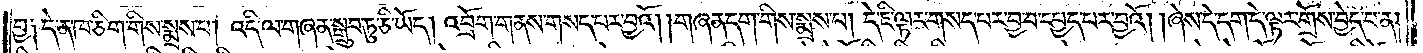བྱ༑ དེ་ན་ཁ་ཅིག་གིས་སྨྲས་པ། འདི་ལ་གཞན་སྒྲུབ་ཏུ་ཅི་ཡོད། འབྲོག་གནས་གསད་པར་བྱའོ། །གཞན་དག་གིས་སྨྲས་པ། དེ་ཇི་ལྟར་གསད་པར་བྱ་བ་དཔྱད་པར་བྱའོ། །ཞེས་དེ་དག་དེ་ལྟར་གྲོས་བྱེད་པ་ན།
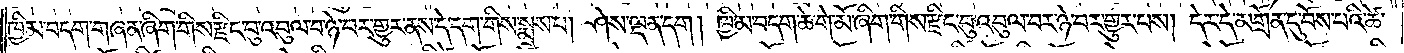ཁྱིམ་བདག་གཞན་ཞིག་གིས་རྫིང་བུ་འབུལ་བ་ཉེ་བར་གྱུར་ནས་དེ་དག་གིས་སྨྲས་པ། ཤེས་ལྡན་དག །ཁྱིམ་བདག་ཆེ་གེ་མོ་ཞིག་གིས་རྫིང་བུ་འབུལ་བར་ཉེ་བར་གྱུར་པས། དེར་དེ་མགྲོན་དུ་བོས་པའི་ཚེ་
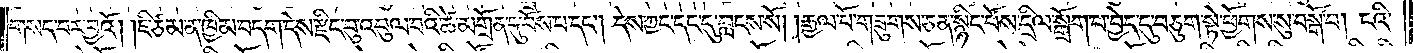གསད་པར་བྱའོ། །ཇི་ཙམ་ན་ཁྱིམ་བདག་དེས་རྫིང་བུ་འབུལ་བའི་ཚེ་མགྲོན་དུ་བོས་པ་དང༌། དེས་ཀྱང་དང་དུ་བླངས་སོ། །རྒྱལ་པོ་གཟུགས་ཅན་སྙིང་པོས་དྲིལ་སྒྲོག་པ་བྱེད་དུ་བཅུག་སྟེ་ཕྱོགས་སུ་བསྒོ་བ། ངའི་
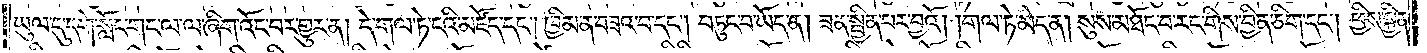ཡུལ་དུ་དགེ་སློང་གང་ལ་ལ་ཞིག་འོང་བར་གྱུར་ན། དེ་གལ་ཏེ་ངའི་མཛོད་དང༌། ཁྱིམ་ན་བཟའ་བ་དང༌། བཏུང་བ་ཡོད་ན། ཟན་སྦྱིན་པར་བྱའོ། །གལ་ཏེ་མེད་ན། སུས་མཐོང་བ་རང་གིས་བྱིན་ཅིག་དང༌། ཕྱིས་སྐྱིན་
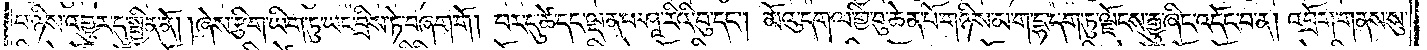པ་ཉིས་འགྱུར་དུ་སྦྱིན་ནོ། །ཞེས་རྩིག་ཡིག་ཏུ་ཡང་བྲིས་ཏེ་བཞག་གོ །བར་དུ་ཚེ་དང་ལྡན་པ་ཤཱ་རིའི་བུ་དང༌། མོའུ་དགལ་གྱི་བུ་ཆེན་པོ་གཉིས་མ་ག་དྷ་དག་ཏུ་ལྗོངས་རྒྱུ་ཞིང་འདོང་བ་ན། འབྲོག་གནས་སུ་
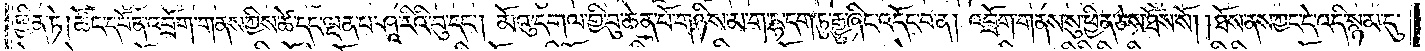ཕྱིན་ཏེ། ཚོང་དཔོན་འབྲོག་གནས་ཀྱིས་ཚེ་དང་ལྡན་པ་ཤཱ་རིའི་བུ་དང༌། མོའུ་དགལ་གྱི་བུ་ཆེན་པོ་གཉིས་མ་ག་དྷ་དག་ཏུ་རྒྱུ་ཞིང་འདོང་བ་ན། འབྲོག་གནས་སུ་ཕྱིན་ཅེས་ཐོས་སོ། །ཐོས་ནས་ཀྱང་དེ་འདི་སྙམ་དུ་
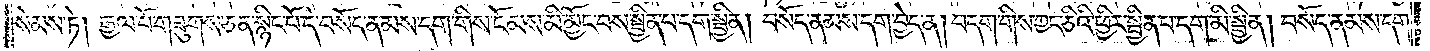སེམས་ཏེ། རྒྱལ་པོ་གཟུགས་ཅན་སྙིང་པོ་དེ་བསོད་ནམས་དག་གིས་ངོམས་མི་མྱོང་བས་སྦྱིན་པ་དག་སྦྱིན། བསོད་ནམས་དག་བྱེད་ན། བདག་གིས་ཀྱང་ཅིའི་ཕྱིར་སྦྱིན་པ་དག་མི་སྦྱིན། བསོད་ནམས་དག་
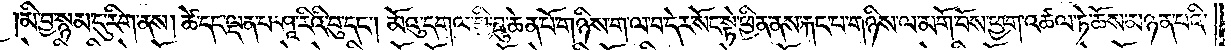།མི་བྱ་སྙམ་དུ་རིག་ནས། ཚེ་དང་ལྡན་པ་ཤཱ་རིའི་བུ་དང༌། མོའུ་དགལ་གྱི་བུ་ཆེན་པོ་གཉིས་ག་ལ་བ་དེར་སོང་སྟེ་ཕྱིན་ནས་རྐང་པ་གཉིས་ལ་མགོ་བོས་ཕྱག་འཚལ་ཏེ་ཆོས་མཉན་པའི་
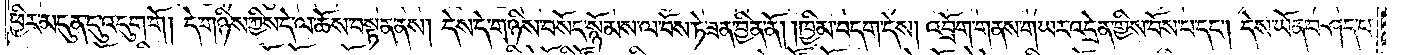ཕྱིར་མདུན་དུ་འདུག་གོ །དེ་གཉིས་ཀྱིས་དེ་ལ་ཆོས་བསྟན་ནས། དེས་དེ་གཉིས་བསོད་སྙོམས་ལ་བོས་ཏེ་ཟན་བྱིན་ནོ། །ཁྱིམ་བདག་དེས། འབྲོག་གནས་གཡར་འདྲེན་གྱིས་བོས་པ་དང༌། དེས་ཡོན་བཤད་པ་
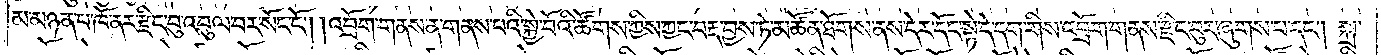མ་མཉན་པ་ཁོ་ནར་རྫིང་བུ་འབུལ་བར་སོང་ངོ༌། །འབྲོག་གནས་ན་གནས་པའི་སྐྱེ་བོའི་ཚོགས་ཀྱིས་ཀྱང་བརྡ་བྱས་ཏེ་མཚོན་ཐོགས་ནས་དེར་དོང་སྟེ་དེ་དག་གིས་འབྲོག་གནས་རྫིང་བུར་ཞུགས་པ་དང༌། སྐྲ་
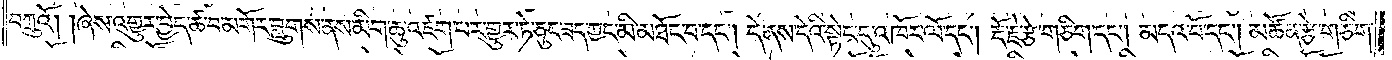བཀྲུའོ། །ཞེས་འགྱུར་བྱེད་ཚ་བ་མགོར་བླུགས་ནས་མིག་ཆུ་འཛག་པར་གྱུར་ཏེ་ཅུང་ཟད་ཀྱང་མི་མཐོང་བ་དང༌། དེ་ནས་དེའི་སྟེང་དུ་འཁོར་ལོ་དང༌། རྡོ་རྗེ་རྩེ་གཅིག་དང༌། མདའ་བོ་དང༌། མཚོན་རྩེ་གཅིག་
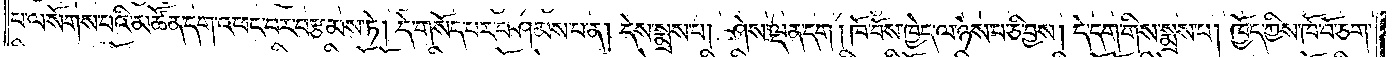པ་ལ་སོགས་པའི་མཚོན་དག་འཕང་བར་བརྩམས་ཏེ། དེ་གསོད་པར་བཤམས་པ་ན། དེས་སྨྲས་པ། ཤེས་ལྡན་དག །ཁོ་བོས་ཁྱེད་ལ་ཉེས་པ་ཅི་བྱས། དེ་དག་གིས་སྨྲས་པ། ཁྱོད་ཀྱིས་ཁོ་བོ་ཅག་
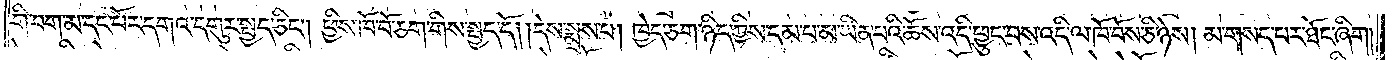གི་བག་མ་དང་པོར་དགའ་དགུར་སྤྱད་ཅིང༌། ཕྱིས་ཁོ་བོ་ཅག་གིས་སྤྱད་དོ། །དེས་སྨྲས་པ། ཁྱེད་ཅག་ཉིད་ཀྱིས་དམ་པ་མ་ཡིན་པའི་ཆོས་འདི་ཕྱུང་བས་འདི་ལ་ཁོ་བོས་ཅི་ཉེས། མ་གསད་པར་ཐོང་ཞིག།
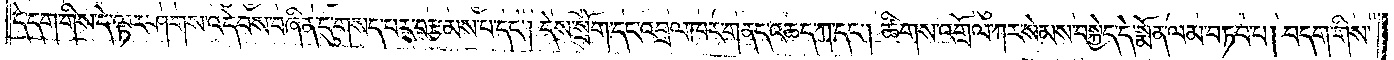དེ་དག་གིས་དེ་ལྟར་ཤགས་འདེབས་བཞིན་དུ་གསད་པར་བརྩམས་པ་དང༌། དེས་སྲོག་དང་འབྲལ་ཁར་གནད་འཆད་ཀ་དང༌། ཚིགས་འགྲོལ་ཀར་སེམས་བསྐྱེད་དེ་སྨོན་ལམ་བཏབ་པ། བདག་གིས་
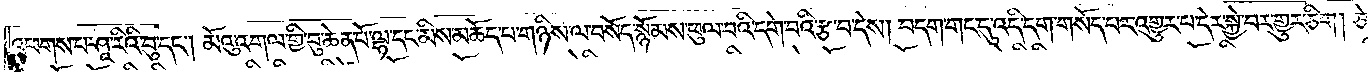འཕགས་པ་ཤཱ་རིའི་བུ་དང༌། མོའུ་འགལ་གྱི་བུ་ཆེན་པོ་ལྷ་དང་མིས་མཆོད་པ་གཉིས་ལ་བསོད་སྙོམས་ཕུལ་བའི་དགེ་བའི་རྩ་བ་དེས། བདག་གང་དུ་འདི་དག་གསོད་པར་འགྱུར་པ་དེར་སྐྱེ་བར་གྱུར་ཅིག། ཅེ་
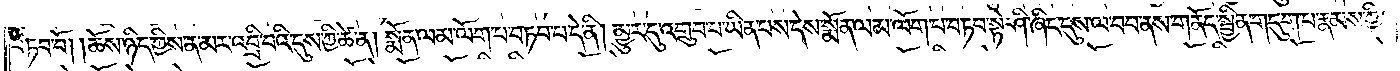བཏབ་བོ། །ཆོས་ཉིད་ཀྱིས་ན་མར་འབྲི་བའི་དུས་ཀྱི་ཚེ་ན། སྨོན་ལམ་ལོག་པ་བཏབ་པ་དེ་ནི། མྱུར་དུ་འགྲུབ་པ་ཡིན་པས་དེས་སྨོན་ལམ་ལོག་པ་བཏབ་སྟེ་ཤི་ཞིང་དུས་ལ་བབ་ནས་གནོད་སྦྱིན་གདུག་པ་རྣམས་ཀྱི་
